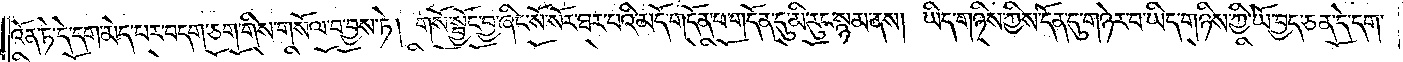འོན་ཏེ་དེ་དག་མེད་པར་བདག་ཅག་གིས་གསོལ་བ་བྱས་ཏེ། གསོ་སྦྱོང་བྱ་ཞིང་སོ་སོར་ཐར་པའི་མདོ་གདོན་པ་གདོན་དུ་མི་རུང་སྙམ་ནས། ཡིད་གཉིས་ཀྱིས་དོན་དུ་གཉེར་བ་ཡིད་གཉིས་ཀྱི་ཡོ་བྱད་ཅན་དེ་དག་
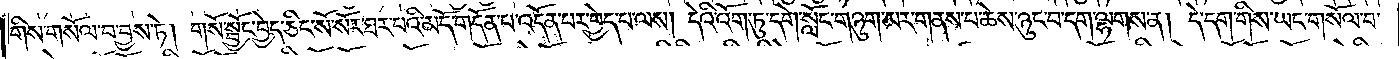གིས་གསོལ་བ་བྱས་ཏེ། གསོ་སྦྱོང་བྱེད་ཅིང་སོ་སོར་ཐར་པའི་མདོ་གདོན་པ་འདོན་པར་བྱེད་པ་ལས། དེའི་འོག་ཏུ་དགེ་སློང་གཉུག་མར་གནས་པ་ཆེས་ཉུང་བ་དག་ལྷགས་ན། དེ་དག་གིས་ཡང་གསོལ་བ་
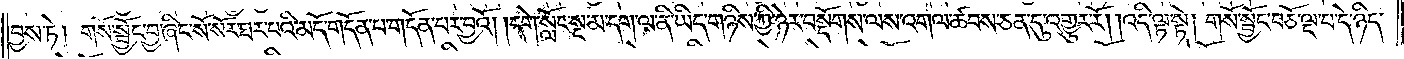བྱས་ཏེ། གསོ་སྦྱོང་བྱ་ཞིང་སོ་སོར་ཐར་པའི་མདོ་གདོན་པ་གདོན་པར་བྱའོ། །དགེ་སློང་སྔ་མ་དག་ལ་ནི་ཡིད་གཉིས་ཀྱི་ཉེར་བསྡོགས་ལས་འགལ་ཚབས་ཅན་དུ་འགྱུར་རོ། །འདི་ལྟ་སྟེ། གསོ་སྦྱོང་བཅོ་ལྔ་པ་དེ་ཉིད་
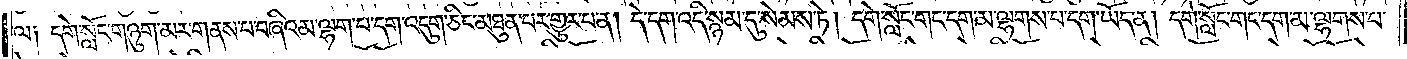ལ༑ དགེ་སློང་གཉུག་མར་གནས་པ་བཞིའམ་ལྷག་པ་དག་འདུག་ཅིང་མཐུན་པར་འགྱུར་བ་ན། དེ་དག་འདི་སྙམ་དུ་སེམས་ཏེ། དགེ་སློང་གང་དག་མ་ལྷགས་པ་དག་ཡོད་ན། དགེ་སློང་གང་དག་མ་ལྷགས་པ་
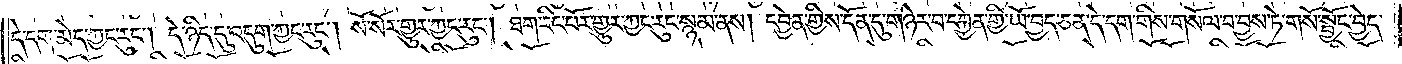དེ་དག་མེད་ཀྱང་རུང༌། དེ་ཉིད་དུ་འདུག་ཀྱང་རུང༌། སོ་སོར་གྱུར་ཀྱང་རུང༌། ཐག་རིང་པོར་གྱུར་ཀྱང་རུང་སྙམ་ནས། དབྱེན་གྱིས་དོན་དུ་གཉེར་བ་དབྱེན་གྱི་ཡོ་བྱད་ཅན་དེ་དག་གིས་གསོལ་བ་བྱས་ཏེ་གསོ་སྦྱོང་བྱེད་
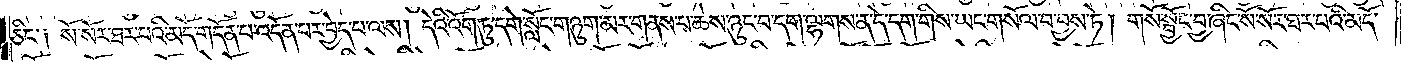ཅིང་༑ སོ་སོར་ཐར་པའི་མདོ་གདོན་པ་འདོན་པར་བྱེད་པ་ལས། དེའི་འོག་ཏུ་དགེ་སློང་གཉུག་མར་གནས་པ་ཆེས་ཉུང་བ་དག་ལྷགས་ན་དེ་དག་གིས་ཡང་གསོལ་བ་བྱས་ཏེ། གསོ་སྦྱོང་བྱ་ཞིང་སོ་སོར་ཐར་པའི་མདོ་
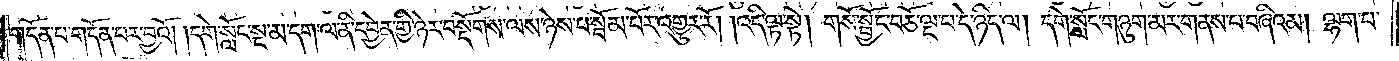གདོན་པ་གདོན་པར་བྱའོ། །དགེ་སློང་སྔ་མ་དག་ལ་ནི་དབྱེན་གྱི་ཉེར་བསྡོགས་ལས་ཉེས་པ་སྦོམ་བོར་འགྱུར་རོ། །འདི་ལྟ་སྟེ། གསོ་སྦྱོང་བཅོ་ལྔ་པ་དེ་ཉིད་ལ། དགེ་སློང་གཉུག་མར་གནས་པ་བཞིའམ། ལྷག་པ་
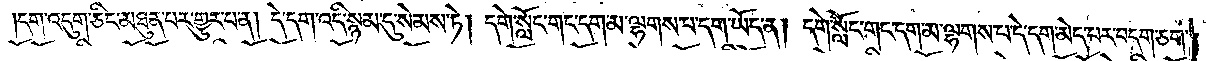དག་འདུག་ཅིང་མཐུན་པར་གྱུར་པ་ན། དེ་དག་འདི་སྙམ་དུ་སེམས་ཏེ། དགེ་སློང་གང་དག་མ་ལྷགས་པ་དག་ཡོད་ན། དགེ་སློང་གང་དག་མ་ལྷགས་པ་དེ་དག་མེད་པར་བདག་ཅག་
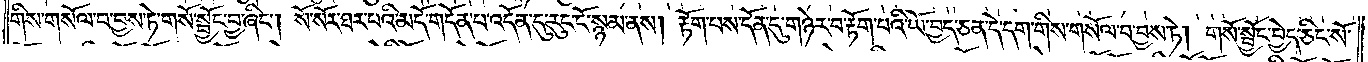གིས་གསོལ་བ་བྱས་ཏེ་གསོ་སྦྱོང་བྱ་ཞིང༌། སོ་སོར་ཐར་པའི་མདོ་གདོན་པ་འདོན་དུ་རུང་ངོ་སྙམ་ནས། རྟོག་པས་དོན་དུ་གཉེར་བ་རྟོག་པའི་ཡོ་བྱད་ཅན་དེ་དག་གིས་གསོལ་བ་བྱས་ཏེ། གསོ་སྦྱོང་བྱེད་ཅིང་སོ་
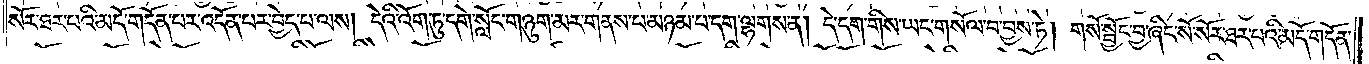སོར་ཐར་པའི་མདོ་གདོན་པར་འདོན་པར་བྱེད་པ་ལས། དེའི་འོག་ཏུ་དགེ་སློང་གཉུག་མར་གནས་པ་མཉམ་པ་དག་ལྷགས་ན། དེ་དག་གིས་ཡང་གསོལ་བ་བྱས་ཏེ། གསོ་སྦྱོང་བྱ་ཞིང་སོ་སོར་ཐར་བའི་མདོ་གདོན་
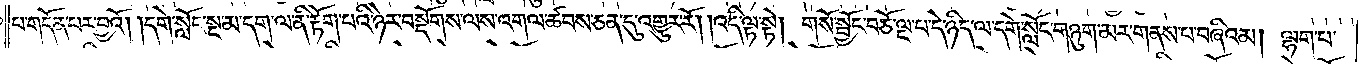པ་གདོན་པར་བྱའོ། །དགེ་སློང་སྔ་མ་དག་ལ་ནི་རྟོག་པའི་ཉེར་བསྡོགས་ལས་འགལ་ཚབས་ཅན་དུ་འགྱུར་རོ། །འདི་ལྟ་སྟེ། གསོ་སྦྱོང་བཅོ་ལྔ་པ་དེ་ཉིད་ལ་དགེ་སློང་གཉུག་མར་གནས་པ་བཞིའམ། ལྷག་པ་
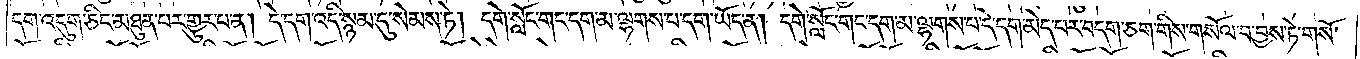དག་འདུག་ཅིང་མཐུན་པར་གྱུར་པ་ན། དེ་དག་འདི་སྙམ་དུ་སེམས་ཏེ། དགེ་སློང་གང་དག་མ་ལྷགས་པ་དག་ཡོད་ན། དགེ་སློང་གང་དག་མ་ལྷགས་པ་དེ་དག་མེད་པར་བདག་ཅག་གིས་གསོལ་བ་བྱས་ཏེ་གསོ་
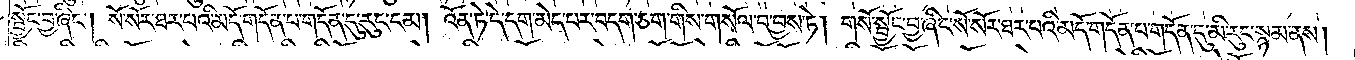སྦྱོང་བྱ་ཞིང༌། སོ་སོར་ཐར་པའི་མདོ་གདོན་པ་གདོན་དུ་རུང་ངམ། འོན་ཏེ་དེ་དག་མེད་པར་བདག་ཅག་གིས་གསོལ་བ་བྱས་ཏེ། གསོ་སྦྱོང་བྱ་ཞིང་སོ་སོར་ཐར་བའི་མདོ་གདོན་པ་གདོན་དུ་མི་རུང་སྙམ་ནས།
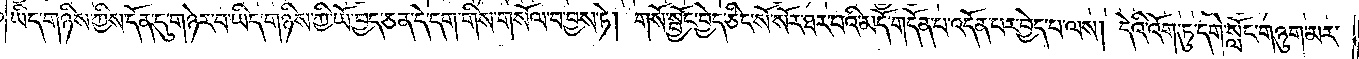ཡིད་གཉིས་ཀྱིས་དོན་དུ་གཉེར་བ་ཡིད་གཉིས་ཀྱི་ཡོ་བྱད་ཅན་དེ་དག་གིས་གསོལ་བ་བྱས་ཏེ། གསོ་སྦྱོང་བྱེད་ཅིང་སོ་སོར་ཐར་པའི་མདོ་གདོན་པ་འདོན་པར་བྱེད་པ་ལས། དེའི་འོག་ཏུ་དགེ་སློང་གཉུག་མར་
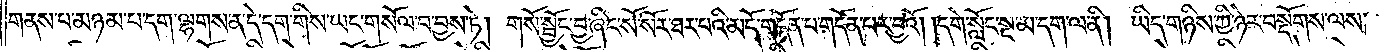གནས་པ་མཉམ་པ་དག་ལྷགས་ན་དེ་དག་གིས་ཡང་གསོལ་བ་བྱས་ཏེ། གསོ་སྦྱོང་བྱ་ཞིང་སོ་སོར་ཐར་བའི་མདོ་གདོན་པ་གདོན་པར་བྱའོ། །དགེ་སློང་སྔ་མ་དག་ལ་ནི། ཡིད་གཉིས་ཀྱི་ཉེར་བསྡོགས་ལས་
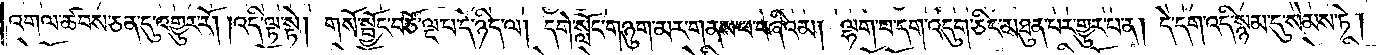འགལ་ཚབས་ཅན་དུ་འགྱུར་རོ། །འདི་ལྟ་སྟེ། གསོ་སྦྱོང་བཅོ་ལྔ་པ་དེ་ཉིད་ལ། དགེ་སློང་གཉུག་མར་གནས་པ་བཞིའམ། ལྷག་པ་དག་འདུག་ཅིང་མཐུན་པར་གྱུར་པ་ན། དེ་དག་འདི་སྙམ་དུ་སེམས་ཏེ།
